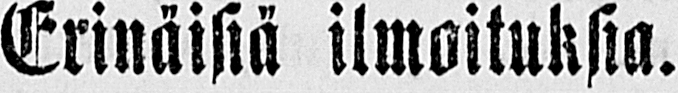Erinäisiä ilmoituksia.
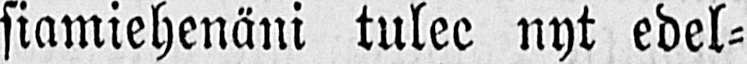siamiehenäni tulee nyt edel-
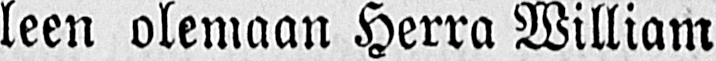leen olemaan Herra William
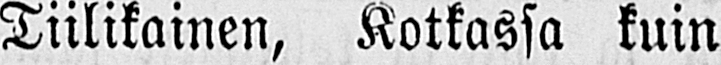Tiilikainen, Kotkassa kuin
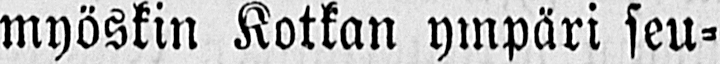myöskin Kotkan ympäri seu-
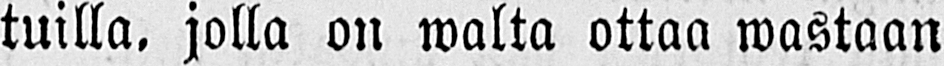tuilla, jolla on walta ottaa wastaan
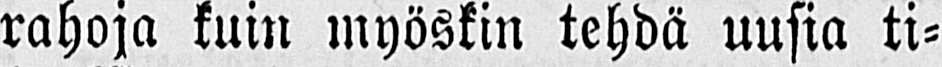rahoja kuin myöskin tehdä uusia ti-
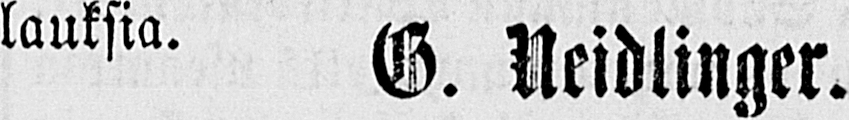lauksia. G. Neidlinger.
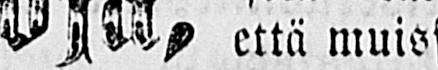Asian-ajoja,
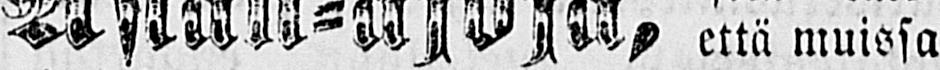sekä laki-
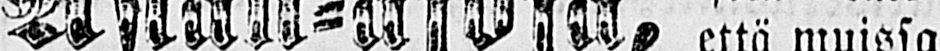että muissa
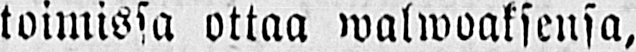toimissa ottaa walwoaksensa,
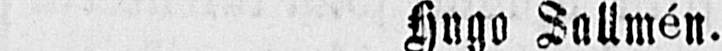Hugo Sallmén.
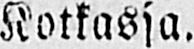Kotkassa.
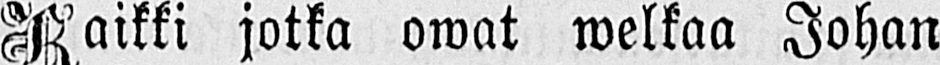Kaikki jotka owat welkaa Johan
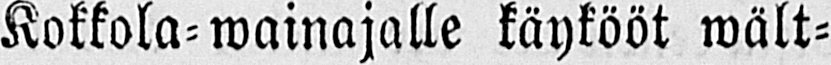Kokkola-wainajalle käykööt wält-
